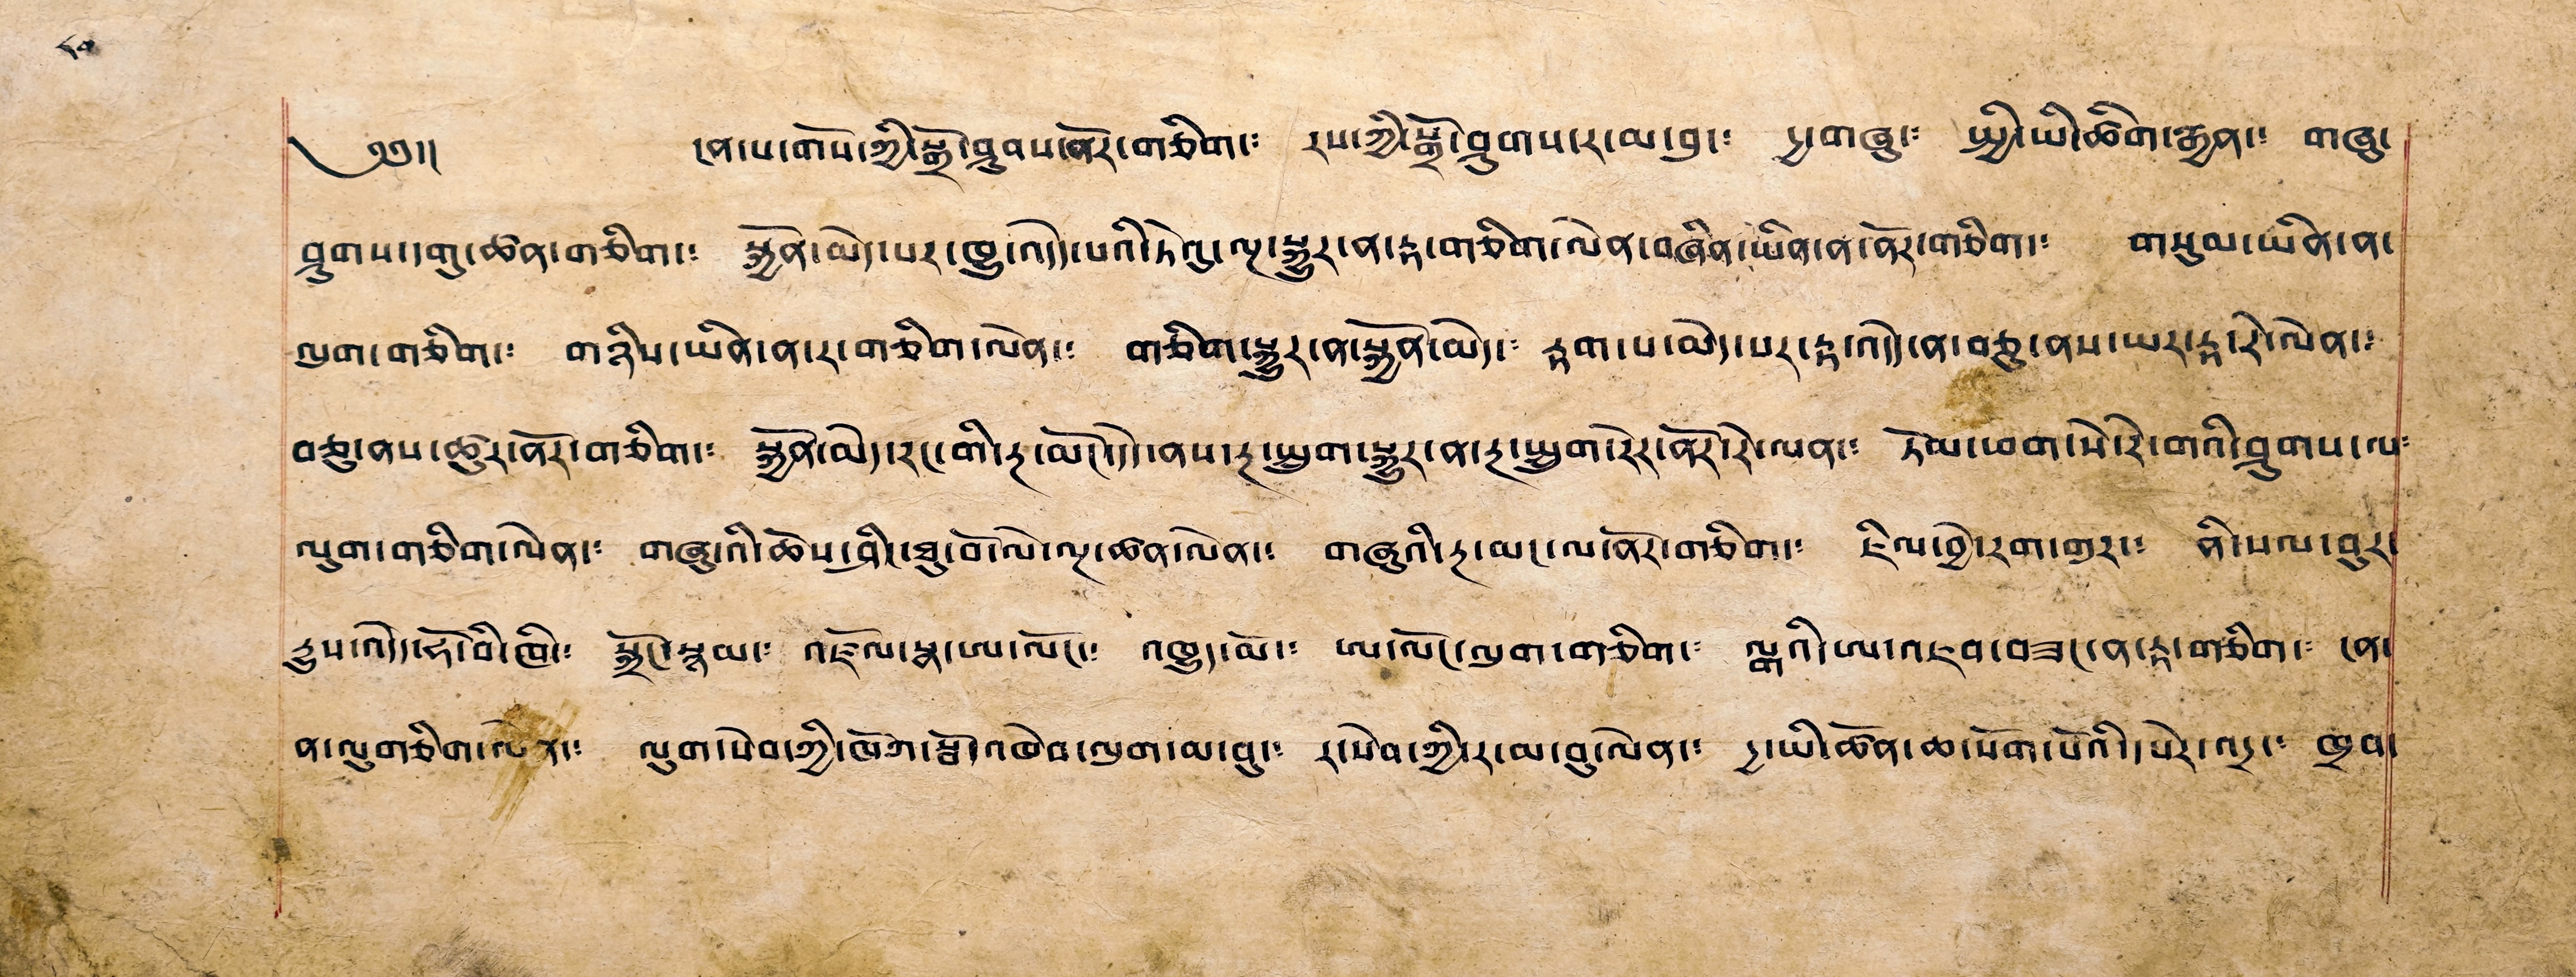༄༅།། ངན་པ་གོས་ཀྱི་སྒྲོ་ཤུབས་ནོར་གཅིག་༴ རས་ཀྱི་སྒྲོ་ཤུགས་ར་མ་བུ་༴ དྱ་གཞུ་༴ སྤྱི་ཡི་ཚིག་རྒྱན་༴ གཞུ་
ཤུགས་དགུ་ཚན་གཅིག་༴ སྐྱོན་མེད་པར་ཁྱུ་འདེད་པའི་ཏེའུ་ལྔ་སྐྱུར་ན་རྟ་གཅིག་ལེན་བཞིན་ཡིན་ན་ནོར་བཅིག་༴ གསུམ་ཡིན་ན་
ལུག་གཅིག་༴ གཉིས་ཡིན་ན་ར་གཅིག་ལེན་༴ གཅིག་སྐྱུར་ན་སྐྱོན་མེད་༴ རྟག་པ་མེད་པར་རྟ་འདེད་ན་བཅུ་ནས་ཡར་རྟ་རེ་ལེན་༴
བཅུ་ནས་ཚུར་ནོར་གཅིག་༴ སྐྱོན་མེད་རང་གི་རྔ་མོང་དེ་ནས་རྔ་སྤྲུག་སྐྱུར་ན་རྔ་སྤྲུག་རེར་ནོར་རེ་ལན་༴ ཏོམ་ཕག་སེ་རེ་གའི་ཤུགས་ལ༴
ལུག་གཅིག་ལེན་༴ གཞུའི་ཆོས་ཤིང་ཐུ་བོ་ལེ་ལྔ་ཚན་ལེན་༴ གཞུའི་རྔ་མང་ལ་ནོར་གཅིག་༴ ཇིལ་བྱེ་རག་གུར་༴ ནི་སལ་བུར་
རྒྱུ་སའདེད་ཧོ་བི་ཁི་༴ སྐྲོང་སྙམ་༴ འཇོལ་སྣ་ཨ་ལོང་༴ འཁྱུད་མོ་༴ ཨ་ལོང་ལུག་གཅིག་༴ ལྒའི་ཨ་འཇབ་བཟང་ན་རྟ་གཅིག་༴ ངན་
ན་ལུགཅིག་ལེན་༴ ལུག་སེབ་ཀྱི་ཁོག་སྦོ་འཁེབ་ལུག་མ་བུ་༴ ར་སེབ་ཀྱི་ར་མ་བུ་ལེན་༴ དྱ་ཡི་ཚོན་ཆ་སོག་པོའི་སེར་འདྲང་༴ ཁྲབ་
